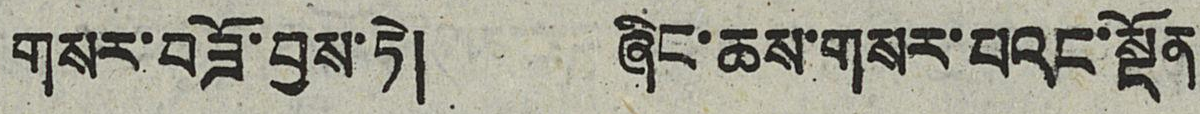གསར་བཟོ་བྱས་ཏེ། ཞིང་ཆས་གསར་པའང་སྔོན
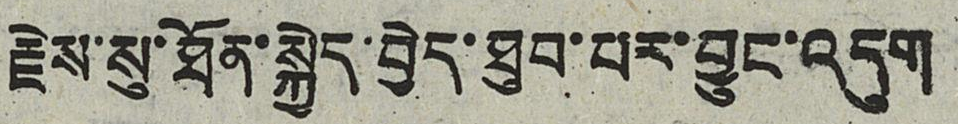རྗེས་སུ་ཐོན་སྐྱེད་བྱེད་ཐུབ་པར་བྱུང་འདུག
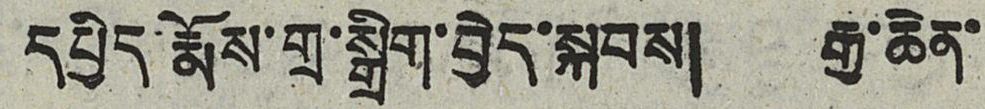དཔྱིད་རྨོས་གྲ་སྒྲིག་བྱེད་སྐབས། རྒྱ་ཆེན་
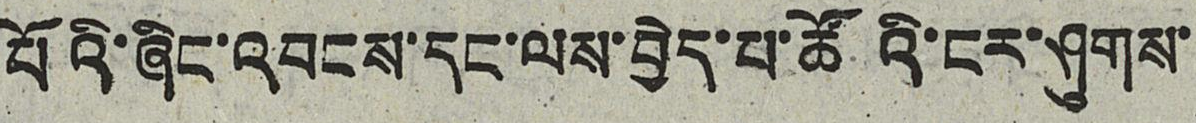པོའི་ཞིང་འབངས་དང་ལས་བྱེད་པ་ཚོའི་ངར་ཤུགས་
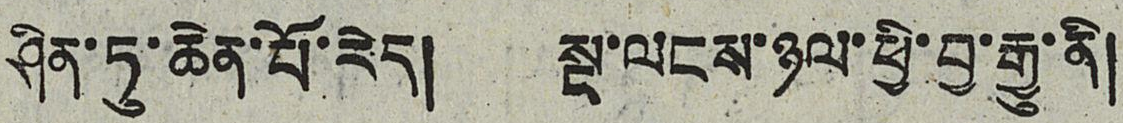ཤིན་ཏུ་ཆེན་པོ་རེད། སྔ་ལངས་ཉལ་ཕྱི་བྱ་རྒྱུ་ནི།
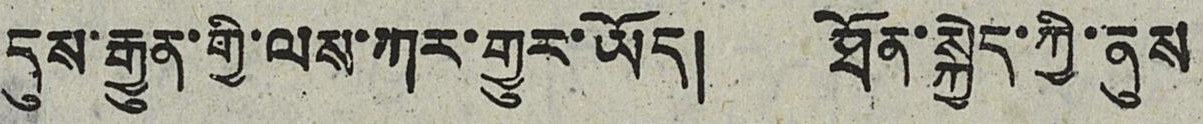དུས་རྒྱུན་གྱི་ལས་ཀར་གྱུར་ཡོད། ཐོན་སྐྱེད་ཀྱི་ནུས
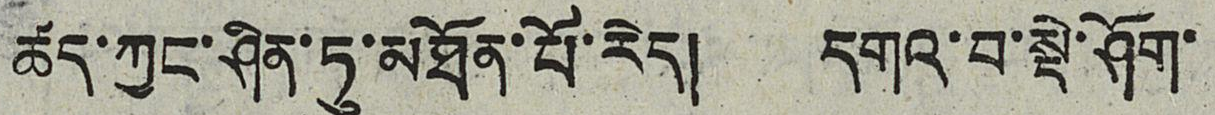ཚད་ཀྱང་ཤིན་ཏུ་མཐོན་པོ་རེད། དགའ་བ་སྡེ་ཤོག་
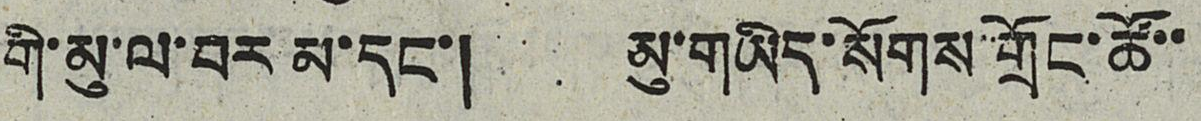གི་མུ་ལ་བར མ་དང་། མུ་གཡིད་སོགས་གྲོང་ཚོ་་
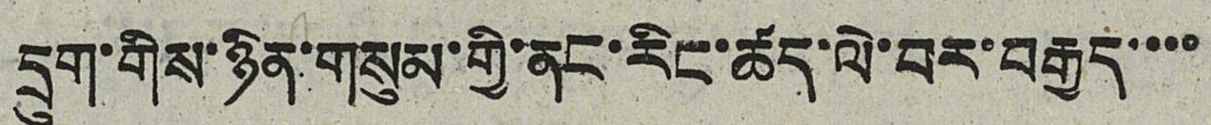དྲུག་གིས་ཉིན་གསུམ་གྱི་ནང་རིང་ཚད་ལེ་བར་བརྒྱད་་་་
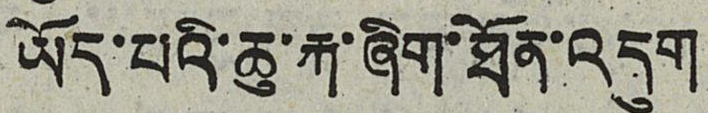ཡོད་པའི་ཆུ་རྐ་ཞིག་ཐོན་འདུག
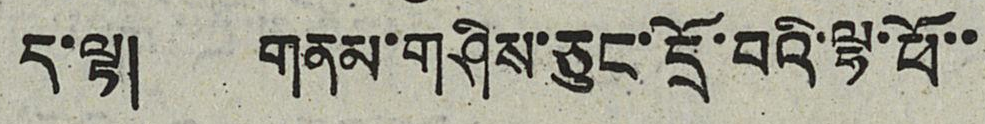ད་ལྟ། གནམ་གཤིས་ཅུང་དྲོ་བའི་ལྷ་ཕོ་་
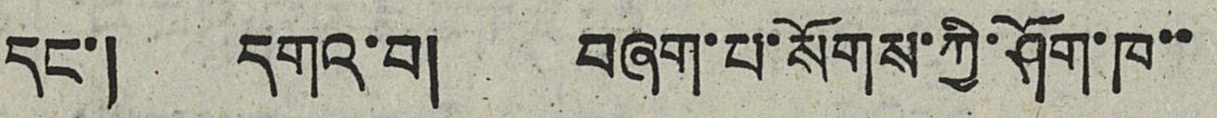དང་། དགའ་བ། བཞག་པ་སོགས་ཀྱི་ཤོག་ཁ་་
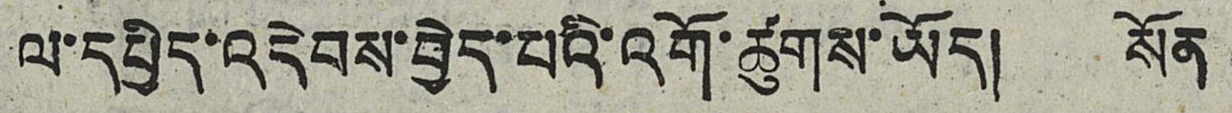ལ་དཔྱིད་འདེབས་བྱེད་པའི་འགོ་ཚུགས་ཡོད། སོན
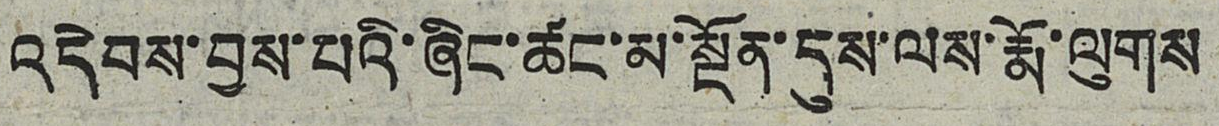འདེབས་བྱས་པའི་ཞིང་ཚང་མ་སྔོན་དུས་ལས་རྨོ་ལུགས
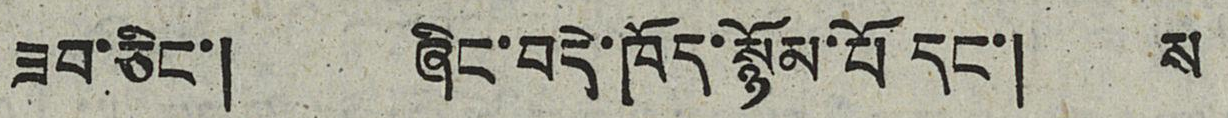ཟབ་ཅིང་། ཞིང་བདེ་ཁོད་སྙོམ་པོ དང་། ས
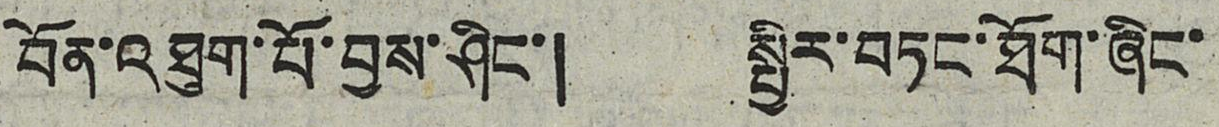བོན་འཐུག་པོ་བྱས་ཤིང་། སྤྱིར་བཏང་ཐོག་ཞིང་་
